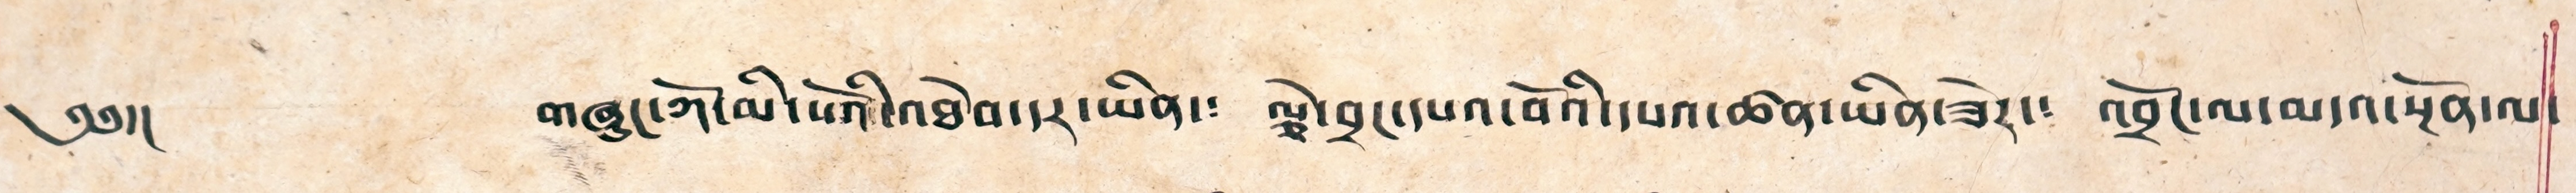༄༅།། གཞུང་ཀོ་མི་པོའི་འཐེབ་དར་ཡིན་༴ ལྕེ་བྲང་དཔའ་བོའི་དཔའ་ཚན་ཡིན་ཟེར་༴ འབྲོང་ལ་མདའ་སྔོན་ལ་
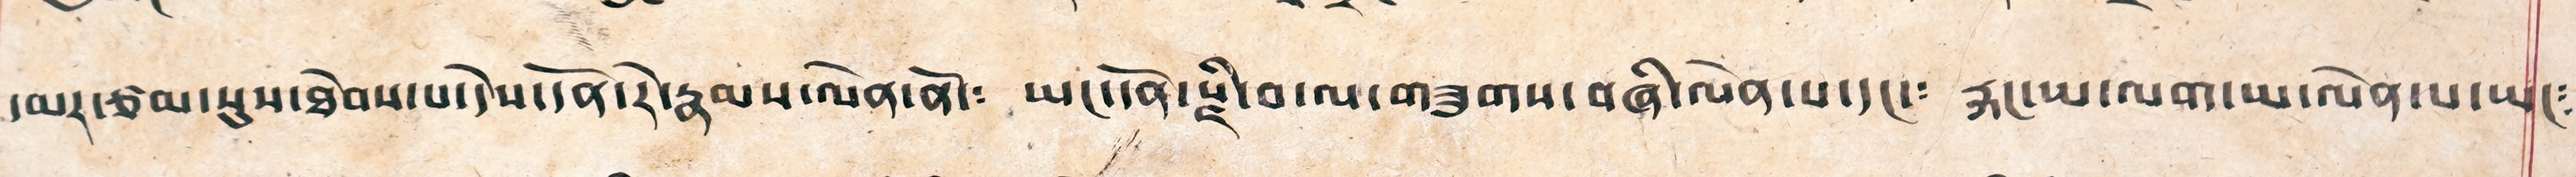དམར་ཙམ་སུས་ཐེབས་པ་དེས་དོན་རེ་རྣམས་ལེན་ནོ་༴ ཡང་དོན་རྫི་བ་ལ་གཟུགས་བཞི་ལེན་པ་དང་༴ རྐང་ཡ་ལག་ཡ་ལེན་པ་ཡང༴
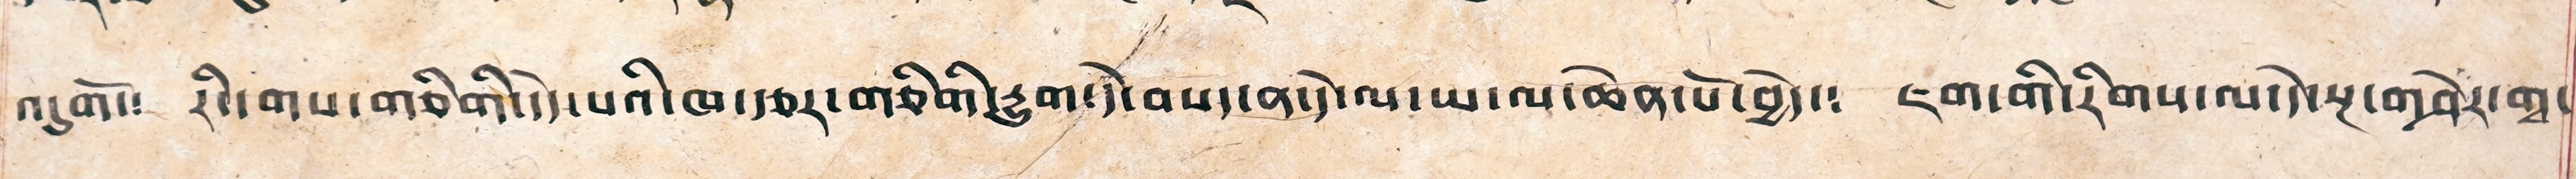འདུགོ་། རིང་གས་གཅིགི་དེ་པའི་ཁ་རྩར་གཅིགི་དྱུག་དེ་བསད་ན་དེ་ལ་ཡ་ལ་ཆེན་པོ་བྱེད་༴ ཇག་གི་རིགས་ལ་དེ་སྔ་གཤེར་གྭ་
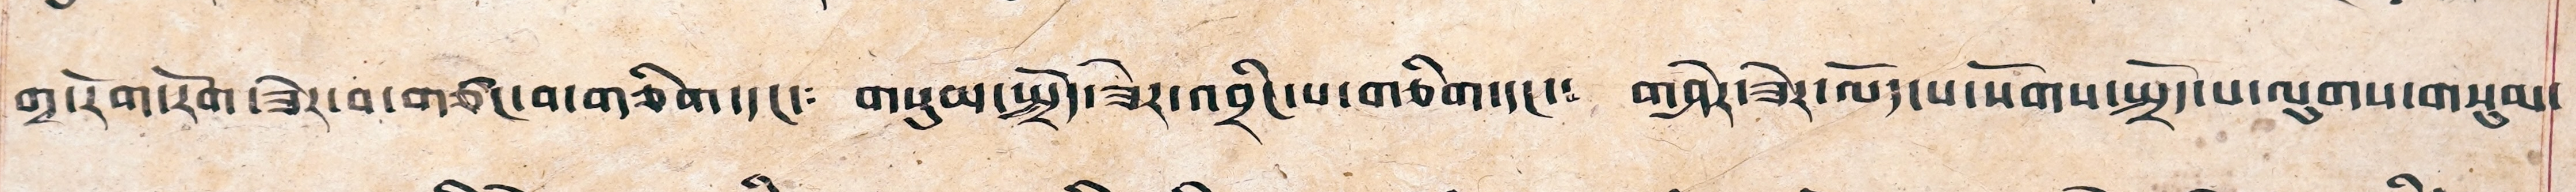གྭ་རོག་རོག་ཟེར་བ་གཙང་བ་གཅིག་དང་༴ གསུམ་སྤྲོད་ཟེར་འབྲིང་པ་གཅིག་དང་༴ གཤེར་ཟེར་ལོད་པ་སོགས་སྤྲོད་པ་ལུགས་གསུམ་
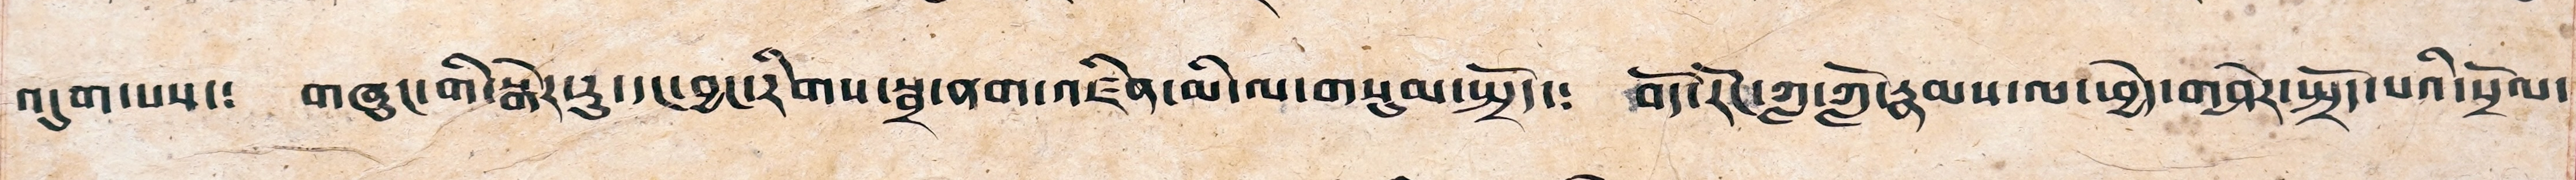འདུག་པས་༴ གཞུང་གྱི་སྒེར་རུ་དང་བྱང་རིགས་སྦྲ་ནག་འཛིན་མི་ལ་གསུམ་སྤྲོད་༴ བོད་རོང་ཀླ་ཀློ་རྣམས་ལ་ཕྱེད་གཤེར་སྤྲོད་པའི་སྲོལ་
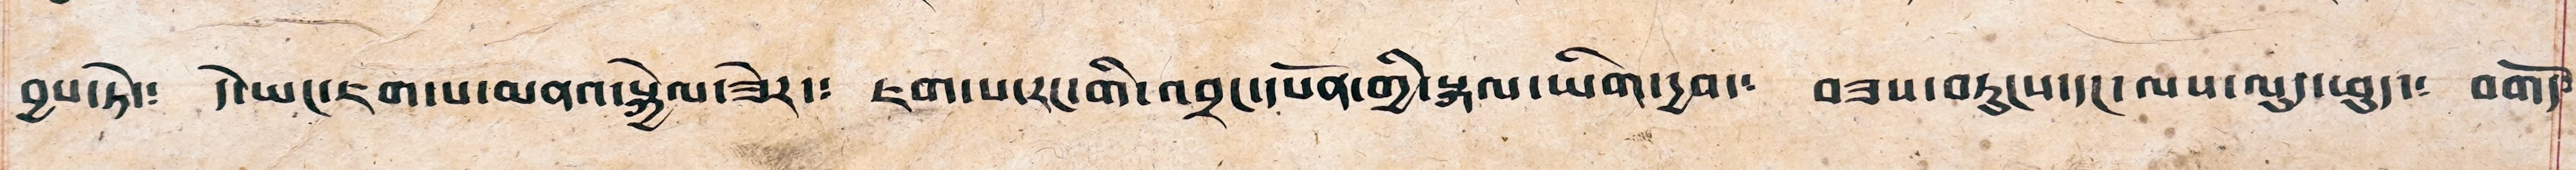བྱས་ཏེ་༴ དེ་ཡང་ཇག་པ་མནའ་སྐྱེལ་ཟེར་༴ ཇག་པ་རང་གི་འབྲང་དཔོན་གྱི་སྐལ་ཡིག་དྱབ་༴ བཟས་བཏུངས་དང་ལས་ལུད་ཕུད་༴ བགོད༴
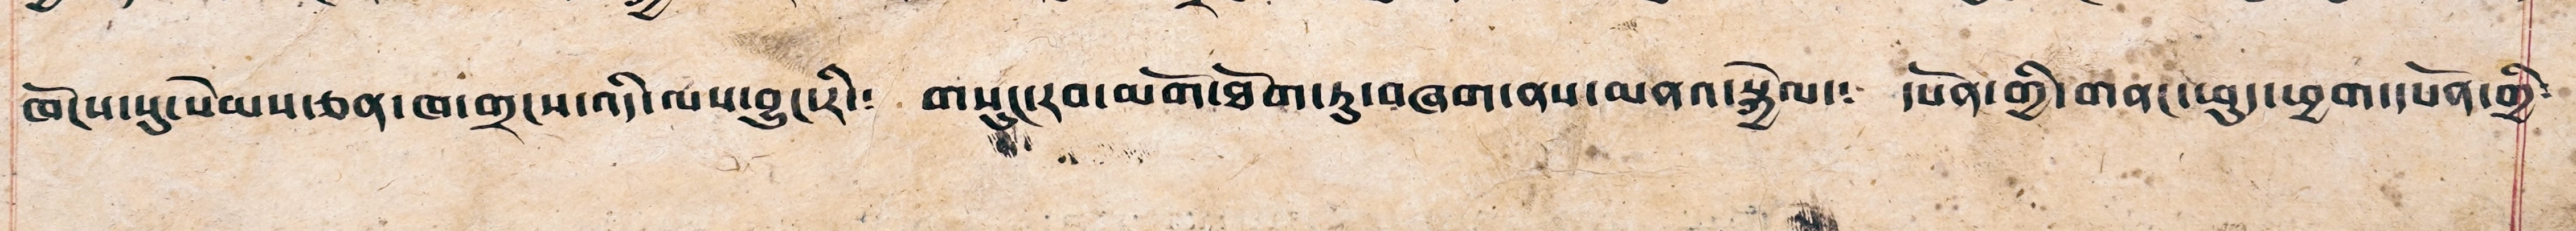ཁོངས་སུ་སེམས་ཅན་ཁ་གྲངས་འདི་ལས་བྱུང་རི་༴ གསུང་རབ་མགོ་ཐོག་ཏུ་བཞག་ནས་མནའ་སྐྱེལ་༴ དཔོན་གྱི་གནང་ཕུད་ཕྱག་དཔོན་གྱི༴
